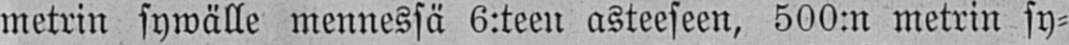metrin sywälle mennessä 6:teen asteeseen, 500:n metrin sy-
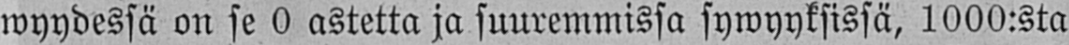myydessä on se O astetta ja suuremmissa sywyyksissä, 1000:sta
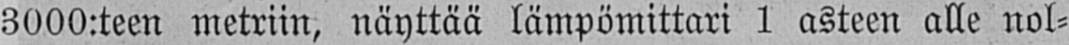3000:teen metriin, näyttää lämpömittari 1 asteen alle nol-
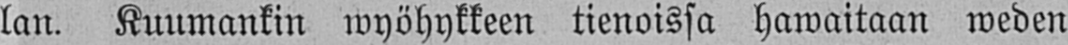lan. Kuumankin wyöhykkeen tienoissa hawaitaan weden
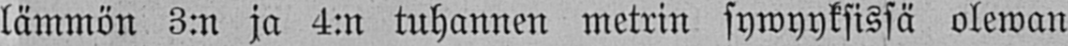lämmön 3:n ja 4:n tuhannen metrin sywyyksissä olewan
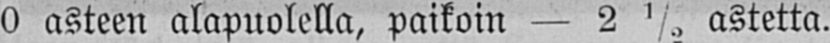0 asteen alapuolella, paikoin — 2 ½ astetta.
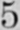5
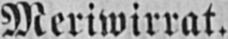Meriwirrat.
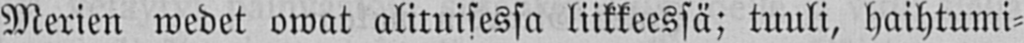Merien wedet owat alituisessa liikkeessä; tuuli, haihtumi-
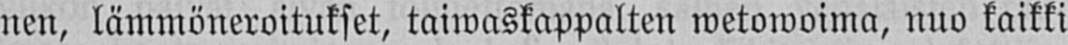nen, lämmöneroitukset, taiwaskappalten wetowoima, nuo kaikki
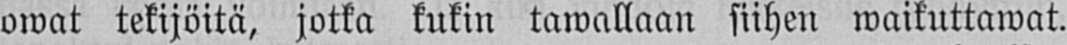owat tekijöitä, jotka kukin tawallaan siihen waikuttawat.
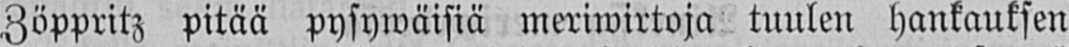Zöppritz pitää pysywäisiä meriwirtoja tuulen hankauksen
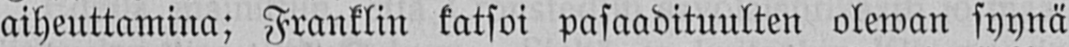aiheuttamina; Franklin katsoi pasaadituulten olewan syynä
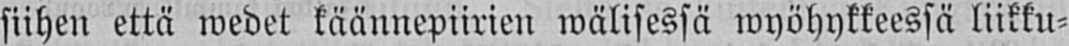siihen että wedet käännepiirien wälisessä wyöhykkeessä liikku-
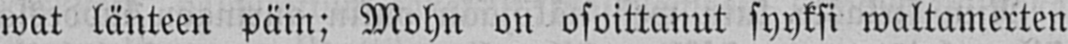wat länteen päin; Mohn on osoittanut syyksi waltamerten
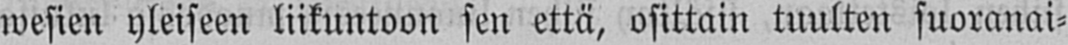wesien yleiseen liikuntoon sen että, osittain tuulten suoranai-
